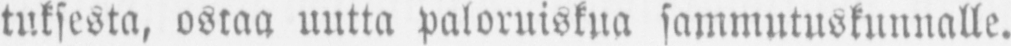tuksesta, ostaa uutta paloruiskua sammutuskunnalle.
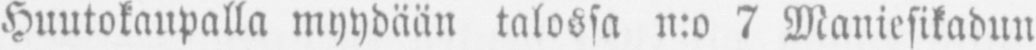Huutokaupalla myydään talossa n:o 7 Maniesikadun
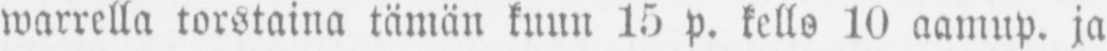warrella torstaina tämän kuun 15 p. kello 10 aamup. ja
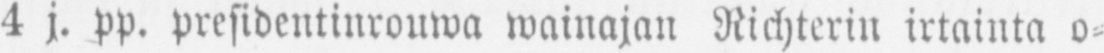4 j. pp. presidentinrouwa wainajan Richterin irtainta o-
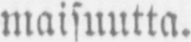maisuutta.
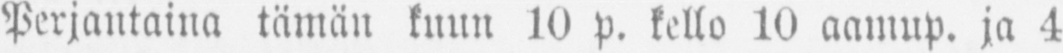Perjantaina tämän kuun 10 p. kello 10 aamup. ja 4
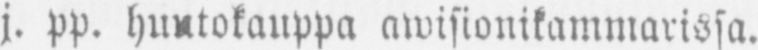j. pp. huutokauppa awisionikammarissa.
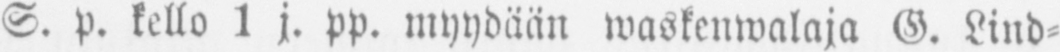S. p. kello 1 j. pp. myydään waskenwalaja G. Lind-
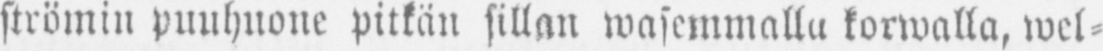strömin puuhuone pitkän sillan wasemmalla korwalla, wel-
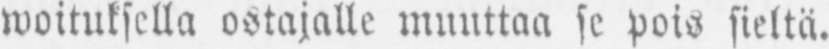woituksella ostajalle muuttaa se pois sieltä.
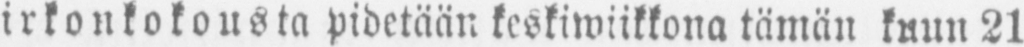Kirkonkokousta Pidetään keskiwiikkona tämän kuun 21
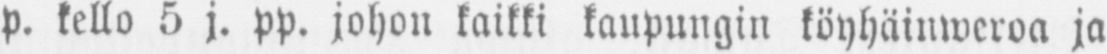p. kello 5 j. pp. johon kaikki kaupungin köyhäinweroa ja
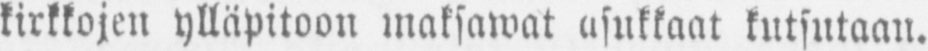kirkkojen ylläpitoon maksawat asukkaat kutsutaan.
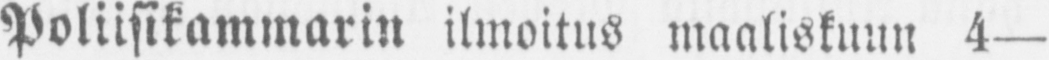Poliisikammarin ilmoitus maaliskuun 4—
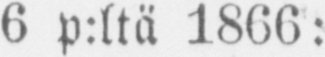6 p:ltä 1866:
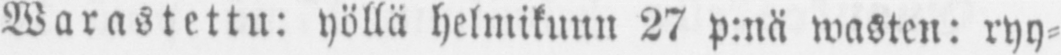Warastettu: yöllä helmikuun 27 p:nä wasten: ryy-
